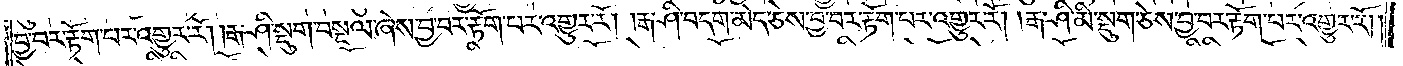བྱ་བར་རྟོག་པར་འགྱུར་རོ། །རྒ་ཤི་སྡུག་བསྔལ་ཞེས་བྱ་བར་རྟོག་པར་འགྱུར་རོ། །རྒ་ཤི་བདག་མེད་ཅེས་བྱ་བར་རྟོག་པར་འགྱུར་རོ། །རྒ་ཤི་མི་སྡུག་ཅེས་བྱ་བར་རྟོག་པར་འགྱུར་རོ། །
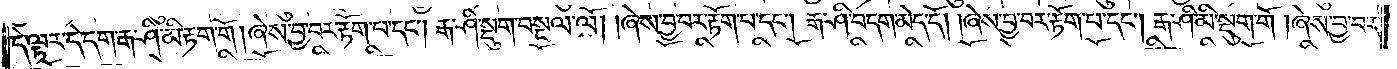དེ་ལྟར་དེ་དག་རྒ་ཤི་མི་རྟག་གོ། ཞེས་བྱ་བར་རྟོག་པ་དང༌། རྒ་ཤི་སྡུག་བསྔལ་ལོ། །ཞེས་བྱ་བར་རྟོག་པ་དང༌། རྒ་ཤི་བདག་མེད་དོ། །ཞེས་བྱ་བར་རྟོག་པ་དང༌། རྒ་ཤི་མི་སྡུག་གོ། ཞེས་བྱ་བར་
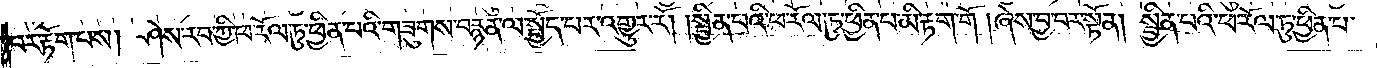བར་རྟོག་པས། ཤེས་རབ་ཀྱི་ཕ་རོལ་ཏུ་ཕྱིན་པའི་གཟུགས་བརྙན་ལ་སྤྱོད་པར་འགྱུར་རོ། །སྦྱིན་པའི་ཕ་རོལ་ཏུ་ཕྱིན་པ་མི་རྟག་གོ། ཞེས་བྱ་བར་སྟོན། སྦྱིན་པའི་ཕ་རོལ་ཏུ་ཕྱིན་པ་
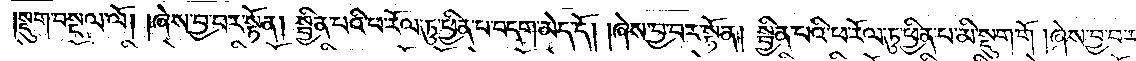སྡུག་བསྔལ་ལོ། །ཞེས་བྱ་བར་སྟོན། སྦྱིན་པའི་ཕ་རོལ་ཏུ་ཕྱིན་པ་བདག་མེད་དོ། །ཞེས་བྱ་བར་སྟོན། སྦྱིན་པའི་ཕ་རོལ་ཏུ་ཕྱིན་པ་མི་སྡུག་གོ། ཞེས་བྱ་བར་
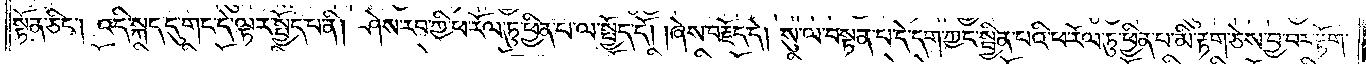སྟོན་ཅིང༌། འདི་སྐད་དུ་གང་དེ་ལྟར་སྤྱོད་པ་ནི། ཤེས་རབ་ཀྱི་ཕ་རོལ་ཏུ་ཕྱིན་པ་ལ་སྤྱོད་དོ། །ཞེས་བརྗོད་དེ། སུ་ལ་བསྟན་པ་དེ་དག་ཀྱང་སྦྱིན་པའི་ཕ་རོལ་ཏུ་ཕྱིན་པ་མི་རྟག་ཅེས་བྱ་བར་རྟོག་
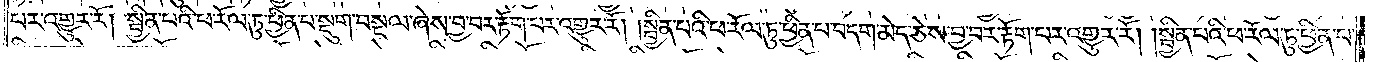པར་འགྱུར་རོ། །སྦྱིན་པའི་ཕ་རོལ་ཏུ་ཕྱིན་པ་སྡུག་བསྔལ་ཞེས་བྱ་བར་རྟོག་པར་འགྱུར་རོ། །སྦྱིན་པའི་ཕ་རོལ་ཏུ་ཕྱིན་པ་བདག་མེད་ཅེས་བྱ་བར་རྟོག་པར་འགྱུར་རོ། །སྦྱིན་པའི་ཕ་རོལ་ཏུ་ཕྱིན་པ་
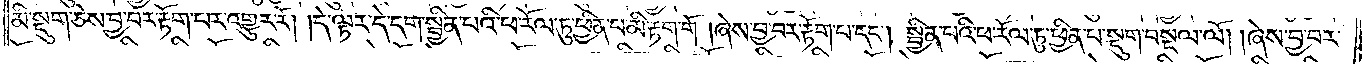མི་སྡུག་ཅེས་བྱ་བར་རྟོག་པར་འགྱུར་རོ། །དེ་ལྟར་དེ་དག་སྦྱིན་པའི་ཕ་རོལ་ཏུ་ཕྱིན་པ་མི་རྟག་གོ། ཞེས་བྱ་བར་རྟོག་པ་དང༌། སྦྱིན་པའི་ཕ་རོལ་ཏུ་ཕྱིན་པ་སྡུག་བསྔལ་ལོ། །ཞེས་བྱ་བར་
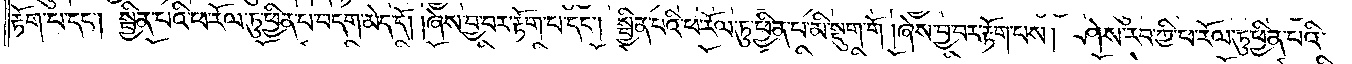རྟོག་པ་དང༌། སྦྱིན་པའི་ཕ་རོལ་ཏུ་ཕྱིན་པ་བདག་མེད་དོ། །ཞེས་བྱ་བར་རྟོག་པ་དང༌། སྦྱིན་པའི་ཕ་རོལ་ཏུ་ཕྱིན་པ་མི་སྡུག་གོ། ཞེས་བྱ་བར་རྟོག་པས། ཤེས་རབ་ཀྱི་ཕ་རོལ་ཏུ་ཕྱིན་པའི་
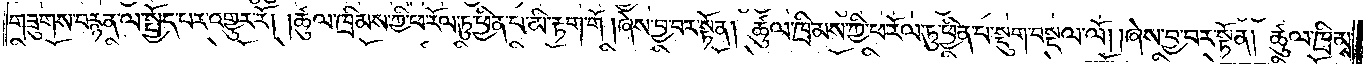གཟུགས་བརྙན་ལ་སྤྱོད་པར་འགྱུར་རོ། །ཚུལ་ཁྲིམས་ཀྱི་ཕ་རོལ་ཏུ་ཕྱིན་པ་མི་རྟག་གོ། ཞེས་བྱ་བར་སྟོན། ཚུལ་ཁྲིམས་ཀྱི་ཕ་རོལ་ཏུ་ཕྱིན་པ་སྡུག་བསྔལ་ལོ། །ཞེས་བྱ་བར་སྟོན། ཚུལ་ཁྲིམས་
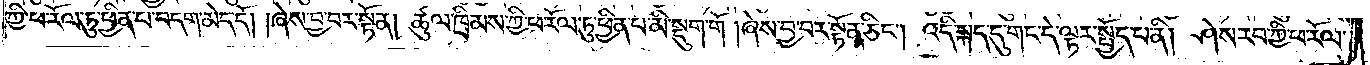ཀྱི་ཕ་རོལ་ཏུ་ཕྱིན་པ་བདག་མེད་དོ། །ཞེས་བྱ་བར་སྟོན། ཚུལ་ཁྲིམས་ཀྱི་ཕ་རོལ་ཏུ་ཕྱིན་པ་མི་སྡུག་གོ། ཞེས་བྱ་བར་སྟོན་ཅིང༌། འདི་སྐད་དུ་གང་དེ་ལྟར་སྤྱོད་པ་ནི། ཤེས་རབ་ཀྱི་ཕ་རོལ་
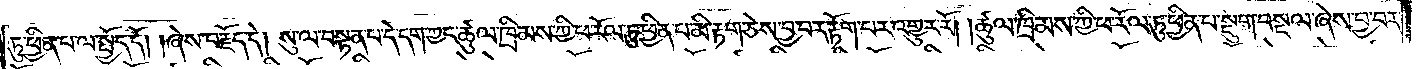ཏུ་ཕྱིན་པ་ལ་སྤྱོད་དོ། །ཞེས་བརྗོད་དེ། སུ་ལ་བསྟན་པ་དེ་དག་ཀྱང་ཚུལ་ཁྲིམས་ཀྱི་ཕ་རོལ་ཏུ་ཕྱིན་པ་མི་རྟག་ཅེས་བྱ་བར་རྟོག་པར་འགྱུར་རོ། །ཚུལ་ཁྲིམས་ཀྱི་ཕ་རོལ་ཏུ་ཕྱིན་པ་སྡུག་བསྔལ་ཞེས་བྱ་བར་
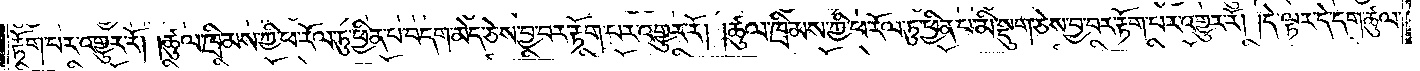རྟོག་པར་འགྱུར་རོ། །ཚུལ་ཁྲིམས་ཀྱི་ཕ་རོལ་ཏུ་ཕྱིན་པ་བདག་མེད་ཅེས་བྱ་བར་རྟོག་པར་འགྱུར་རོ། །ཚུལ་ཁྲིམས་ཀྱི་ཕ་རོལ་ཏུ་ཕྱིན་པ་མི་སྡུག་ཅེས་བྱ་བར་རྟོག་པར་འགྱུར་རོ། །དེ་ལྟར་དེ་དག་ཚུལ་
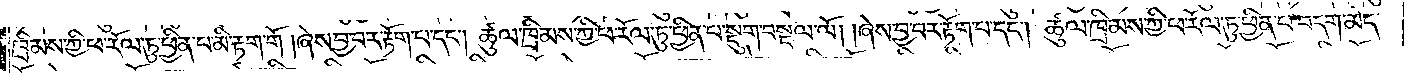ཁྲིམས་ཀྱི་ཕ་རོལ་ཏུ་ཕྱིན་པ་མི་རྟག་གོ། ཞེས་བྱ་བར་རྟོག་པ་དང༌། ཚུལ་ཁྲིམས་ཀྱི་ཕ་རོལ་ཏུ་ཕྱིན་པ་སྡུག་བསྔལ་ལོ། །ཞེས་བྱ་བར་རྟོག་པ་དང༌། ཚུལ་ཁྲིམས་ཀྱི་ཕ་རོལ་ཏུ་ཕྱིན་པ་བདག་མེད་
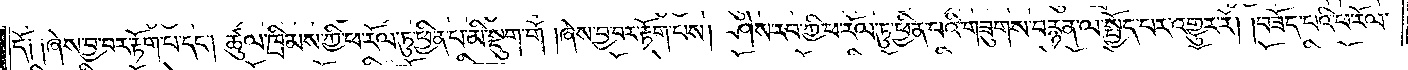དོ༑ ༑ཞེས་བྱ་བར་རྟོག་པ་དང༌། ཚུལ་ཁྲིམས་ཀྱི་ཕ་རོལ་ཏུ་ཕྱིན་པ་མི་སྡུག་གོ། ཞེས་བྱ་བར་རྟོག་པས། ཤེས་རབ་ཀྱི་ཕ་རོལ་ཏུ་ཕྱིན་པའི་གཟུགས་བརྙན་ལ་སྤྱོད་པར་འགྱུར་རོ། །བཟོད་པའི་ཕ་རོལ་
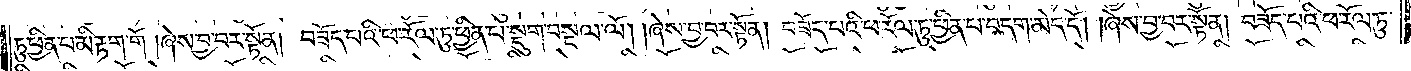ཏུ་ཕྱིན་པ་མི་རྟག་གོ། ཞེས་བྱ་བར་སྟོན། བཟོད་པའི་ཕ་རོལ་ཏུ་ཕྱིན་པ་སྡུག་བསྔལ་ལོ། །ཞེས་བྱ་བར་སྟོན། བཟོད་པའི་ཕ་རོལ་ཏུ་ཕྱིན་པ་བདག་མེད་དོ། །ཞེས་བྱ་བར་སྟོན། བཟོད་པའི་ཕ་རོལ་ཏུ་
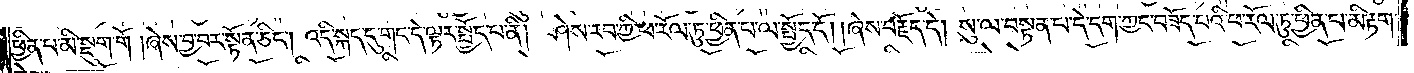ཕྱིན་པ་མི་སྡུག་གོ། ཞེས་བྱ་བར་སྟོན་ཅིང༌། འདི་སྐད་དུ་གང་དེ་ལྟར་སྤྱོད་པ་ནི། ཤེས་རབ་ཀྱི་ཕ་རོལ་ཏུ་ཕྱིན་པ་ལ་སྤྱོད་དོ། །ཞེས་བརྗོད་དེ། སུ་ལ་བསྟན་པ་དེ་དག་ཀྱང་བཟོད་པའི་ཕ་རོལ་ཏུ་ཕྱིན་པ་མི་རྟག་
